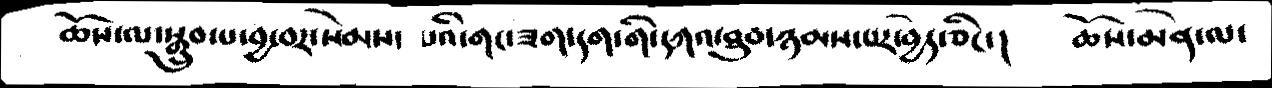ཆོས་ལ་སྒྲུབ་པ་བྱ་བར་སེམས་པའི་གང་ཟག་དག་གི་དཀའ་ཐུབ་ཉམས་པར་བྱེད་ཅིང་།   ཆོས་མེན་ལ་
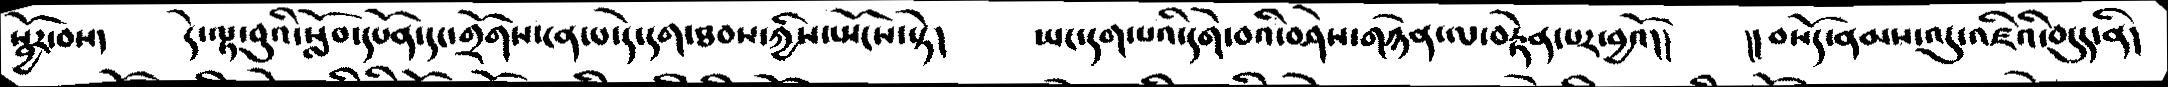སྦྱོར་བས།    དེ་ལྟ་བུའི་སློབ་དཔོན་དང་གྲོགས་ངན་པ་དེ་དག་ཐབས་ཀྱིས་སྤོངས་སྟེ།     ཡང་དག་པའི་དགེ་བའི་བཤེས་གཉེན་ལ་བརྟེན་པར་བྱའོ།།     །།བསོད་ནམས་འདུ་འཛིའི་བདུད་ནི་
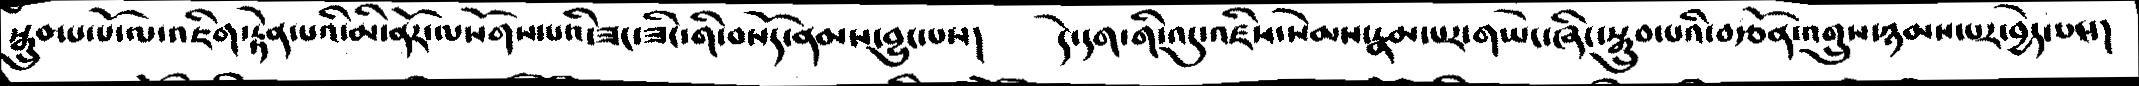སྒྲུབ་པ་པོ་ལ་འཇིག་རྟེན་པའི་མི་ནོར་ལསོགས་པའི་ཟང་ཟིང་གི་བསོད་ནམས་བྱུང་བས།    དེ་དག་གི་འདུ་འཛིས་སེམས་རྣམ་པར་གཡེང་ཞིང་སྒྲུབ་པའི་བརྩོན་འགྲུས་ཉམས་པར་བྱེད་པས།
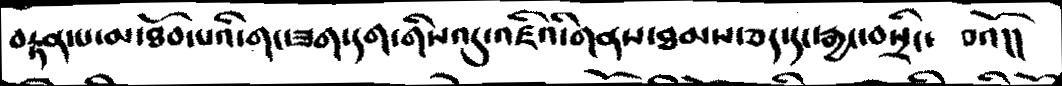བརྟན་པ་མ་ཐོབ་པའི་གང་ཟག་དག་གིས་འདུ་འཛིའི་གནས་ཐམས་ཅད་དང་རྒྱང་བསྲིང་བའོ།།
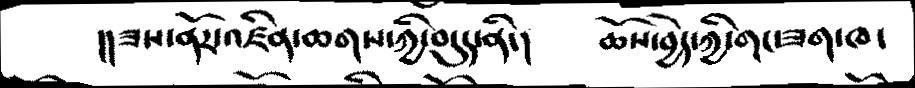།།ཟས་ནོར་འཛིན་ཆགས་ཀྱི་བདུད་ནི་།  ཆོས་བྱེད་ཀྱི་གང་ཟག་ཁ་
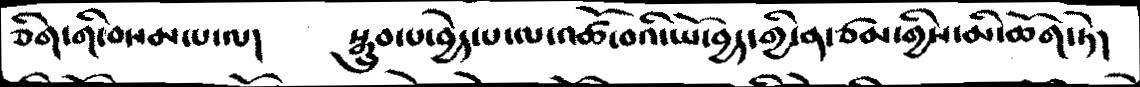ཅིག་གི་བསམ་པ་ལ་།  སྒྲུབ་པ་བྱེད་པ་ལ་འཚོ་བའི་ཡོ་བྱད་གྱི་ན་ཙམ་གྱིས་མི་ཆོག་ཏེ།
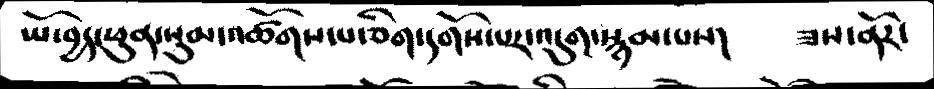ཡོ་བྱད་ཕུན་སུམ་འཚོགས་པ་ཅིག་དགོས་པར་འདུག་སྙམ་པས།  ཟས་ནོར་
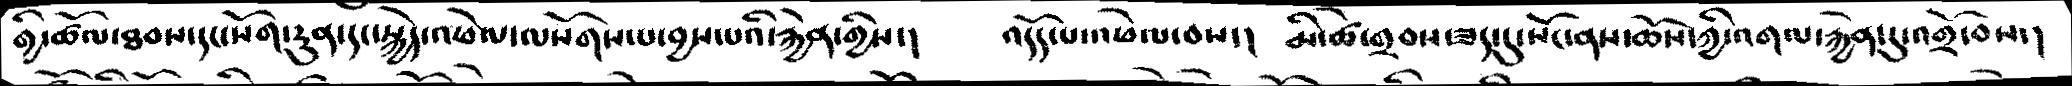གྱི་ཚོལ་ཐབས་དང་སོག་ད྄རུན་དང་སྐྱེད་འཕེལ་ལསོགས་པ་བྱས་པའི་རྐྱེན་གྱིས་།   འདོད་པ་འཕེལ་བས་།  མི་ཚེ་གྲབས་ཟད་དུ་སོང་ནས་ཆོས་ཀྱི་འགལ་རྐྱེན་དུ་འགྲོ་བས་།
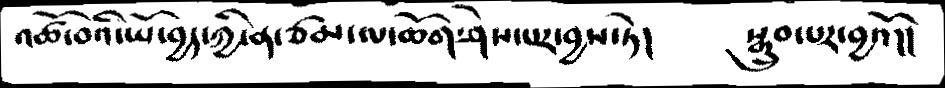འཚོ་བའི་ཡོ་བྱད་ཀྱི་ན་ཙམ་ལ་ཆོག་ཤེས་པར་བྱས་ཏེ།  སྒྲུབ་པར་བྱའོ།།
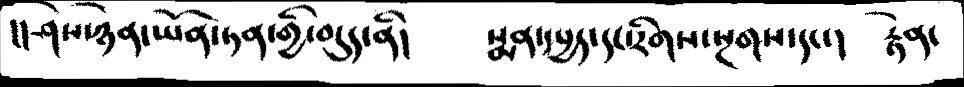།།ཤེས་ཉེན་ཡོན་ཏན་གྱི་བདུད་ནི།     སྨན་དཔྱད་དང་རིགས་སྔགས་དང་།    རྟེན་
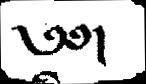༄༅།
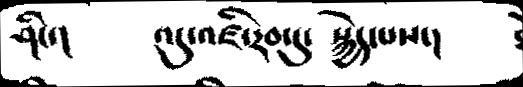ཤིང་།      འདུ་འཛི་རབ་དུ་ སྐྱེད་པས་།
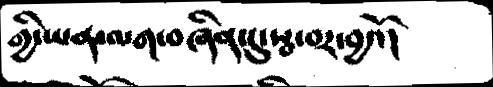གྱི་ཡན་ལག་བཞིན་དུ་སྦ་བར་བྱའོ།
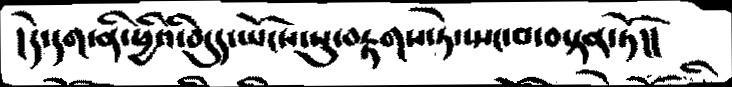།དེ་དག་ནི་ཕྱིའི་བདུད་ཡོངས་སུ་བརྟགས་ཏེ་སྤང་བ་བསྟན་ཏོ།།
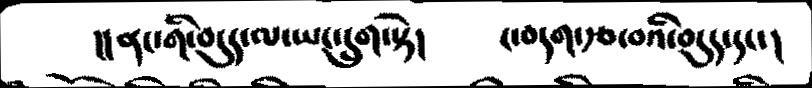།།ནང་གི་བདུད་ལ་ཡང་དྲུག་སྟེ།  ང་བདག་རྩ་བའི་བདུད་དང་།
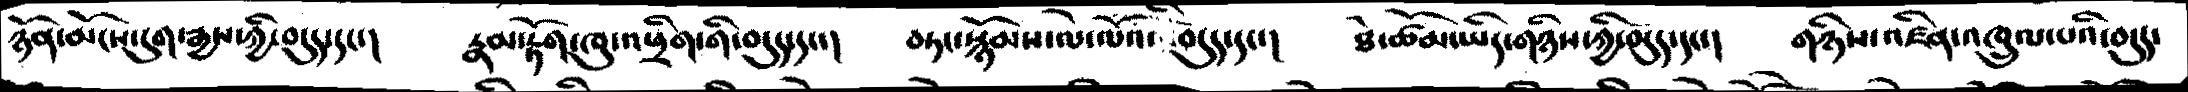ཉོན་མོངས་དུག་རྒྱས་ཀྱི་བདུད་དང་།  རྣམ་རྟོག་ཁུ་འཕྲིག་གི་བདུད་དང་།  བཏང་སྙོམས་ལེ་ལོའི་བདུད་དང་།  ཐེ་ཚོམ་ཡིད་གཉིས་ཀྱི་བདུད་དང་།  གཉིས་འཛིན་འཁྲུལ་པའི་བདུད་
